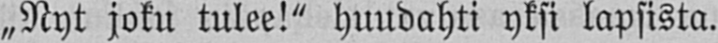„Nyt joku tulee!" huudahti yksi lapsista.
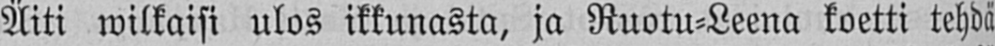Äiti wilkaisi ulos ikkunasta, ja Ruotu-Leena koetti tehdä
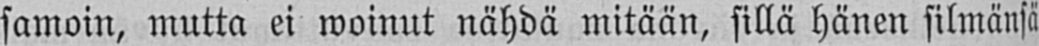samoin, mutta ei woinut nähdä mitään, sillä hänen silmänsä
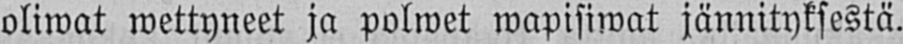oliwat wettyneet ja polwet wapisiwat jännityksestä.
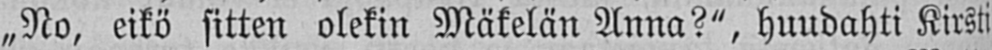„No, eikö sitten olekin Mäkelän Anna?", huudahti Kirsti
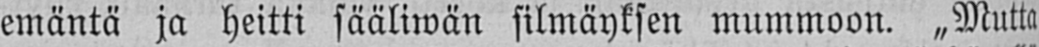emäntä ja heitti sääliwän silmäyksen mummoon. „Mutta
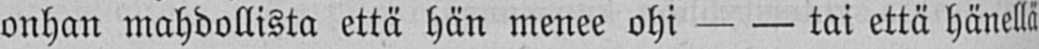onhan mahdollista että hän menee ohi — — tai että hänellä
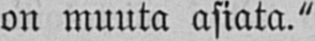on muuta asiata."
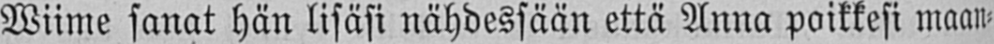Wiime sanat hän lisäsi nähdessään että Anna poikkesi maan-
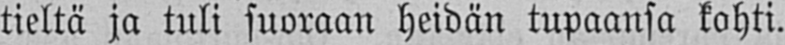tieltä ja tuli suoraan heidän tupaansa kohti.
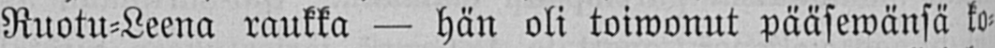Ruotu-Leena raukka — hän oli toiwonut pääsewänsä ko-
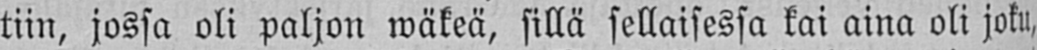tiin, jossa oli paljon wäkeä, sillä sellaisessa kai aina oli joku,
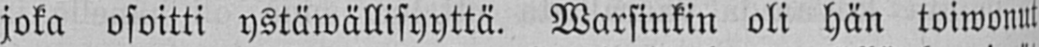joka osoitti ystäwällisyyttä. Warsinkin oli hän toiwonut
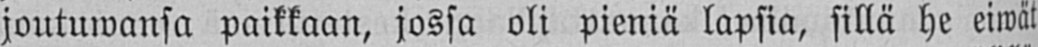joutuwansa paikkaan, jossa oli pieniä lapsia, sillä he eiwät
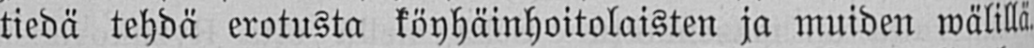tiedä tehdä erotusta köyhäinhoitolaisten ja muiden wälillä.
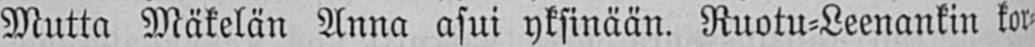Mutta Mäkelän Anna asui yksinään. Ruotu-Leenankin kor-
